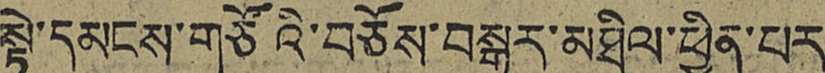སྟེ་དམངས་གཙོའི་བཅོས་བསྒྱུར་མཐིལ་ཕྱིན་པར་
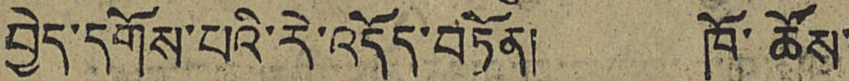བྱེད་དགོས་པའི་རེ་འདོད་བཏོན། ཁོ་ཚོས་
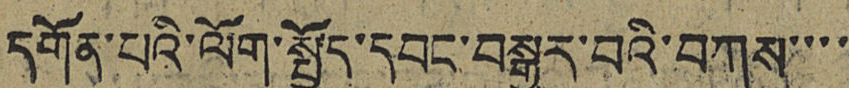དགོན་པའི་ལོག་སྤྱོད་དབང་བསྒྱུར་བའི་བཀས་་་་
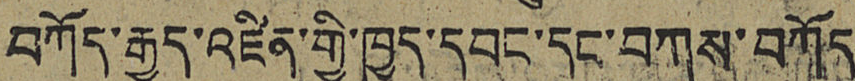བཀོད་རྒྱུད་འཛིན་གྱི་ཁྱད་དབང་དང་བཀས་བཀོད
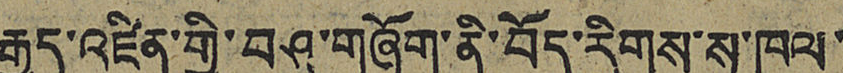རྒྱུད་འཛིན་གྱི་བཤུ་གཞོག་ནི་བོད་རིགས་ས་ཁུལ་
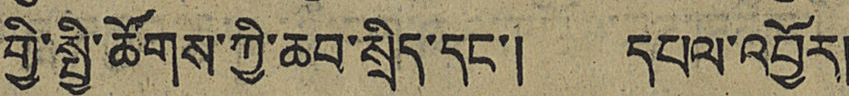གྱི་སྤྱི་ཚོགས་ཀྱི་ཆབ་སྲིད་དང་། དཔལ་འབྱོར།
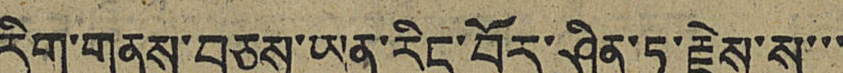རིག་གནས་བཅས་ཡུན་རིང་བོར་ཤིན་ཏུ་རྗེས་སུ་་་
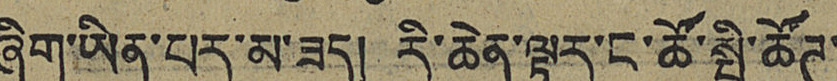ཞིག་ཡིན་པར་མ་ཟད། རི་ཆེན་ལྟར་ང་ཚོ་སྤྱི་ཚོཊ་
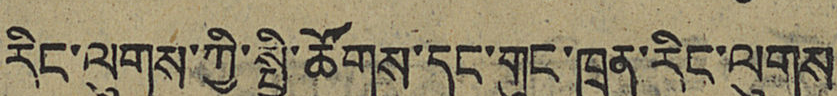རིང་ལུགས་ཀྱི་སྤྱི་ཚོགས་དང་གུང་ཁྲན་རིང་ལུགས་
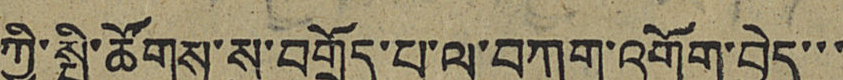ཀྱི་སྤྱི་ཚོགས་སུ་བགྲོད་པ་ལ་བཀག་འགོག་བྱེད་་་
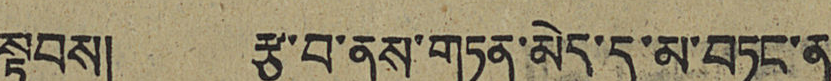སྟབས། རྩ་བ་ནས་གཏན་མེད་དུ་མ་བཏང་ན་
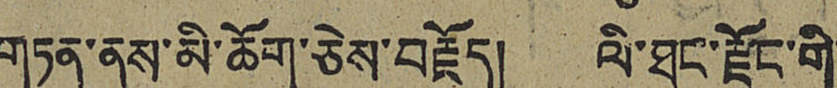གཏན་ནས་མི་ཆོག་ཅེས་བརྗོད། ལི་ཐང་རྫོང་གི་
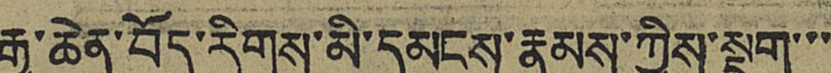རྒྱ་ཆེན་བོད་རིགས་མི་དམངས་རྣམས་ཀྱིས་སྡུག་་་་
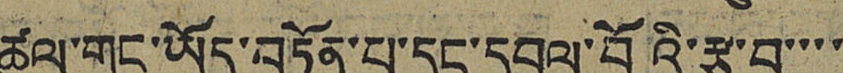ཚུལ་གང་ཡོད་བཏོན་པ་དང་དབུལ་བོའི་རྩ་བ་་་་
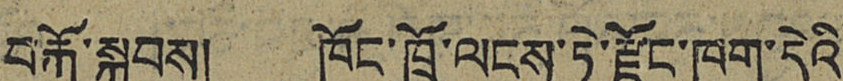བརྐོ་སྐབས། ཁོང་ཁྲོ་ལངས་ཏེ་རྫོང་ཁག་དེའི་
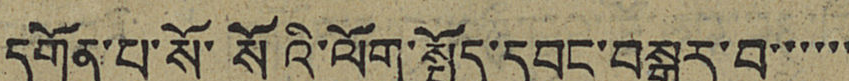དགོན་པ་སོ་སོའི་ལོག་སྤྱོད་དབང་བསྒྱུར་བ་་་་་་
